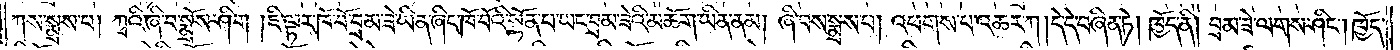ཀས་སྨྲས་པ། ཀྭའི་ཞི་བ་སྨྲོས་ཤིག །ཇི་ལྟར་ཁོ་བོ་བྲམ་ཟེ་ཡིན་ཞིང་ཁོ་བོའི་སྟོན་པ་ཡང་བྲམ་ཟེའི་མཆོག་ཡིན་ནམ། ཞི་བས་སྨྲས་པ། འཕགས་པ་འཆར་ཀ། དེ་དེ་བཞིན་ཏེ། ཁྱོད་ནི། བྲམ་ཟེ་ལགས་ཤིང༌། ཁྱོད་
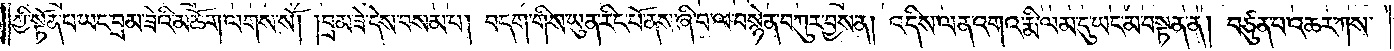ཀྱི་སྟོན་པ་ཡང་བྲམ་ཟེའི་མཆོག་ལགས་སོ། །བྲམ་ཟེ་དེས་བསམ་པ། བདག་གིས་ཡུན་རིང་པོ་ནས་ཞི་བ་ལ་བསྙེན་བཀུར་བྱས་ན། འདིས་ལན་འགའ་རྨི་ལམ་དུ་ཡང་མ་བསྟན་ན། བཙུན་པ་འཆར་ཀས་
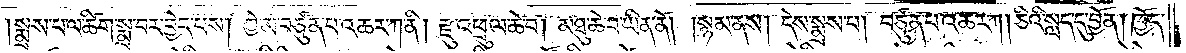སྨྲས་པ་ལ་ཚིག་སྨྲ་བར་བྱེད་པས། ཀྱེ་མ་བཙུན་པ་འཆར་ཀ་ནི། རྫུ་འཕྲུལ་ཆེ་བ། མཐུ་ཆེ་བ་ཡིན་ནོ། །སྙམ་ནས། དེས་སྨྲས་པ། བཙུན་པ་འཆར་ཀ། །ཅིའི་སླད་དུ་བྱོན། ཁྱོད་
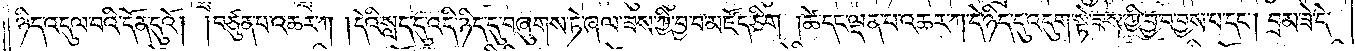ཉིད་འདུལ་བའི་དོན་དུའོ། །བཙུན་པ་འཆར་ཀ །དེའི་སླད་དུ་འདི་ཉིད་དུ་བཞུགས་ཏེ་ཞལ་ཟས་ཀྱི་བྱ་བ་མཛོད་ཅིག །ཚེ་དང་ལྡན་པ་འཆར་ཀ་དེ་ཉིད་དུ་འདུག་སྟེ་ཟས་ཀྱི་བྱ་བ་བྱས་པ་དང༌། བྲམ་ཟེ་དེ་
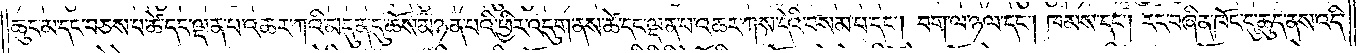ཆུང་མ་དང་བཅས་པ་ཚེ་དང་ལྡན་པ་འཆར་ཀའི་མདུན་དུ་ཆེས་མཉན་པའི་ཕྱིར་འདུག་ནས་ཚེ་དང་ལྡན་པ་འཆར་ཀས་དེའི་བསམ་པ་དང༌། བག་ལ་ཉལ་དང༌། ཁམས་དང༌། རང་བཞིན་ཁོང་དུ་ཆུད་ནས་འདི་
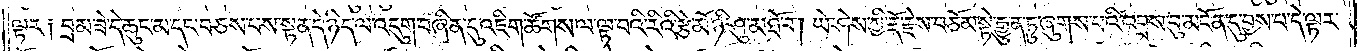ལྟར༑ བྲམ་ཟེ་དེ་ཆུང་མ་དང་བཅས་པས་སྟན་དེ་ཉིད་ལ་འདུག་བཞིན་དུ་འཇིག་ཚོགས་ལ་ལྟ་བའི་རིའི་རྩེ་མོ་ཉི་ཤུ་མཐོ་བ། ཡེ་ཤེས་ཀྱི་རྡོ་རྗེས་བཅོམ་སྟེ་རྒྱུན་ཏུ་ཞུགས་པའི་འབྲས་བུ་མངོན་དུ་བྱས་པ་དེ་ལྟར་
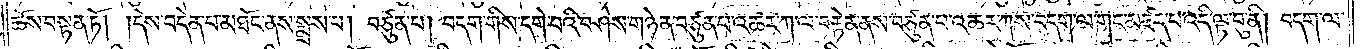ཆོས་བསྟན་ཏོ། །དེས་བདེན་པ་མཐོང་ནས་སྨྲས་པ། བཙུན་པ། བདག་གིས་དགེ་བའི་བཤེས་གཉེན་བཙུན་པ་འཆར་ཀ་ལ་བརྟེན་ནས་བཙུན་པ་འཆར་ཀས་བདག་ལ་གང་མཛད་པ་འདི་ལྟ་བུ་ནི། བདག་ལ་
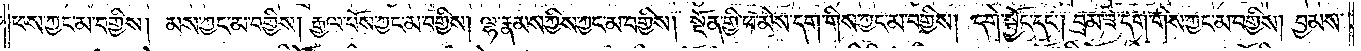ཕས་ཀྱང་མ་བགྱིས། མས་ཀྱང་མ་བགྱིས། རྒྱལ་པོས་ཀྱང་མ་བགྱིས། ལྷ་རྣམས་ཀྱིས་ཀྱང་མ་བགྱིས། སྔོན་གྱི་ཕ་མེས་དག་གིས་ཀྱང་མ་བགྱིས། དགེ་སྦྱོང་དང༌། བྲམ་ཟེ་དག་གིས་ཀྱང་མ་བགྱིས། བྱམས་
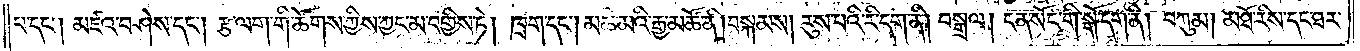པ་དང༌། མཛའ་བཤེས་དང༌། རྩ་ལག་གི་ཚོགས་ཀྱིས་ཀྱང་མ་བགྱིས་ཏེ། ཁྲག་དང༌། མཆི་མའི་རྒྱ་མཚོ་ནི། བསྐམས། རུས་པའི་རི་དག་ནི། བསྒྲལ། ངན་སོང་གི་སྒོ་དག་ནི། བཀུམ། མཐོ་རིས་དང་ཐར་
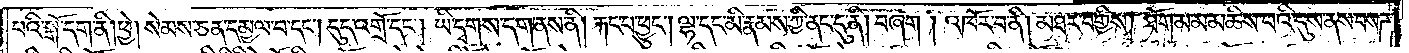པའི་སྒོ་དག་ནི། ཕྱེ། སེམས་ཅན་དམྱལ་བ་དང༌། དུད་འགྲོ་དང༌། ཡི་དྭགས་དག་ནས་ནི། རྐང་པ་ཕྱུང༌། ལྷ་དང་མི་རྣམས་ཀྱི་ནང་དུ་ནི། བཞག །འཁོར་བ་ནི། མཐར་བགྱིས། ཐོག་མ་མ་མཆིས་པའི་དུས་ནས་བསཌ
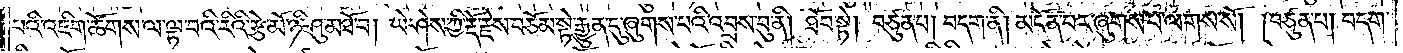པའི་འཇིག་ཚོགས་ལ་ལྟ་བའི་རིའི་རྩེ་མོ་ཉི་ཤུ་མཐོ་བ། ཡེ་ཤེས་ཀྱི་རྡོ་རྗེས་བཅོམ་སྟེ་རྒྱུན་དུ་ཞུགས་པའི་འབྲས་བུ་ནི། ཐོབ་སྟེ། བཙུན་པ། བདག་ནི། མངོན་པར་ཞུགས་པ་ལགས་སོ། །བཙུན་པ། བདག་
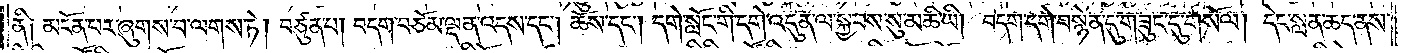ནི༑ མངོན་པར་ཞུགས་པ་ལགས་ཏེ། བཙུན་པ། བདག་བཅོམ་ལྡན་འདས་དང༌། ཆོས་དང༌། དགེ་སློང་གི་དགེ་འདུན་ལ་སྐྱབས་སུ་མཆི་ཡི། བདག་དགེ་བསྙེན་དུ་གཟུང་དུ་གསོལ། དེང་སླན་ཆད་ནས་
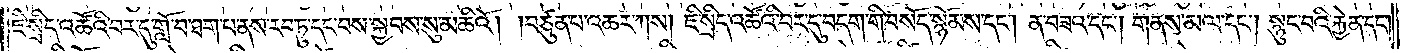ཇི་སྲིད་འཚོའི་བར་དུ་གློ་བ་ཐག་པ་ནས་རབ་ཏུ་དང་བས་སྐྱབས་སུ་མཆིའོ། །བཙུན་པ་འཆར་ཀས། ཇི་སྲིད་འཚོའི་བར་དུ་བདག་གི་བསོད་སྙོམས་དང༌། ན་བཟའ་དང༌། གནས་མལ་དང༌། སྙུང་བའི་རྐྱེན་དང༌།
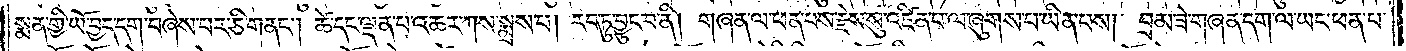སྨན་གྱི་ཡོ་བྱད་དག་བཞེས་བར་ཅི་གནང༌། ཚེ་དང་ལྡན་པ་འཆར་ཀས་སྨྲས་པ། རབ་ཏུ་བྱུང་བ་ནི། གཞན་ལ་ཕན་པས་རྗེས་སུ་འཛིན་པ་ལ་ཞུགས་པ་ཡིན་པས། བྲམ་ཟེ་གཞན་དག་ལ་ཡང་ཕན་པ་
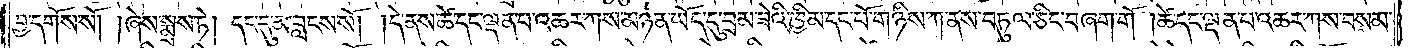བྱ་དགོས་སོ། །ཞེས་སྨྲས་ཏེ། དང་དུ་མ་བླངས་སོ། །དེ་ནས་ཚེ་དང་ལྡན་པ་འཆར་ཀས་མཉན་ཡོད་དུ་བྲམ་ཟེའི་ཁྱིམ་དང་པོ་གཉིས་ཀ་ནས་བཏུལ་ཅིང་བཞག་གོ །ཚེ་དང་ལྡན་པ་འཆར་ཀས་བསམ་
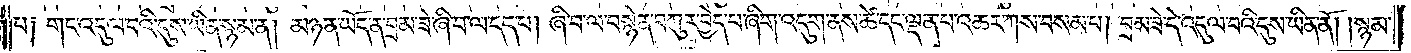པ། གང་འདུལ་བའི་དུས་ཡིན་སྙམ་ན། མཉན་ཡོད་ན་བྲམ་ཟེ་ཞི་བ་ལ་དད་པ། ཞི་བ་ལ་བསྙེན་བཀུར་བྱེད་པ་ཞིག་འདུག་ནས་ཚེ་དང་ལྡན་པ་འཆར་ཀས་བསམ་པ། བྲམ་ཟེ་དེ་འདུལ་བའི་དུས་ཡིན་ནོ། །སྙམ་
